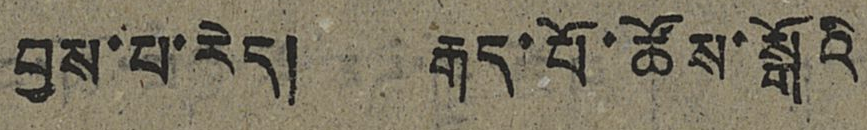བྱས་པ་རེད། རྒད་པོ་ཚོས་སྒོའི
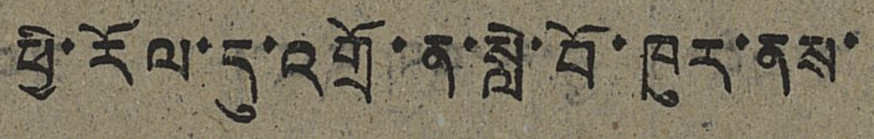ཕྱི་རོལ་དུ་འགྲོ་ན་སླེ་བོ་ཁུར་ནས་
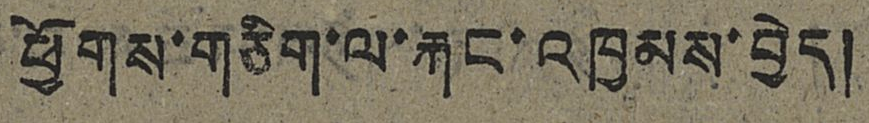ཕྱོགས་གཅིག་ལ་རྐང་འཁྱམས་བྱེད།
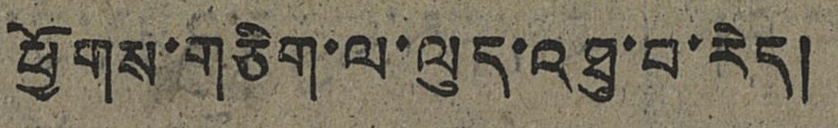ཕྱོགས་གཅིག་ལ་ལུད་འཐུ་བ་རེད།
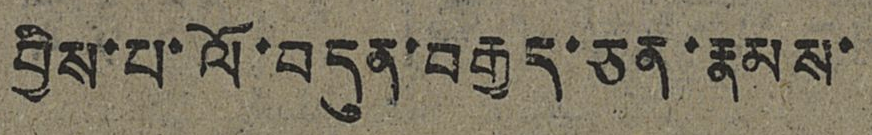བྱིས་པ་ལོ་བདུན་བརྒྱད་ཅན་རྣམས་
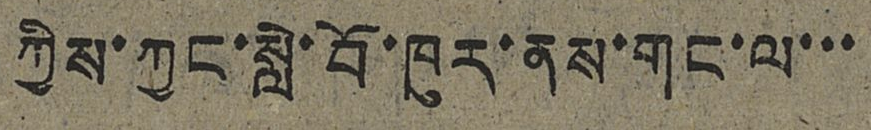ཀྱིས་ཀྱང་སླེ་བོ་ཁུར་ནས་གང་ལ་་་
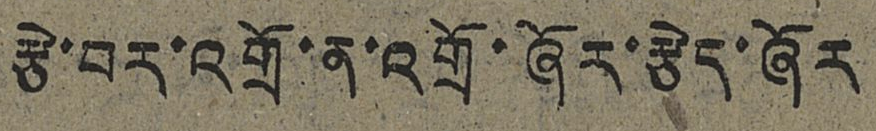རྩེ་བར་འགྲོ་ན་འགྲོ་ཞོར་རྩེད་ཞོར
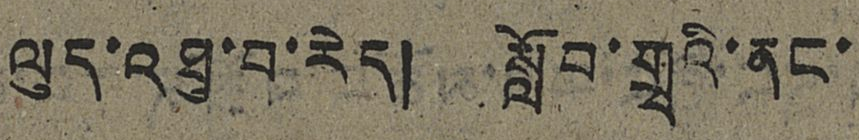ལུད་འཐུ་བ་རེད། སློབ་གྲྭའི་ནང་
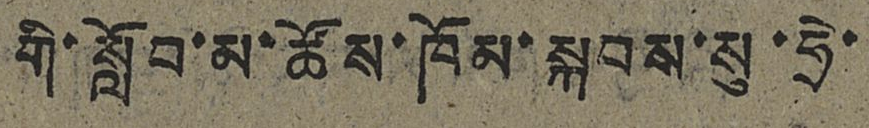གི་སློབ་མ་ཚོས་ཁོམ་སྐབས་སུ་ཧྲེ་
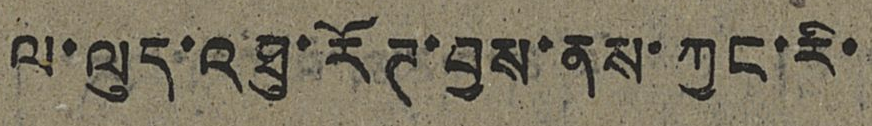ལ་ལུད་འཐུ་རོཊ་བྱས་ནས་ཀྱང་རི་
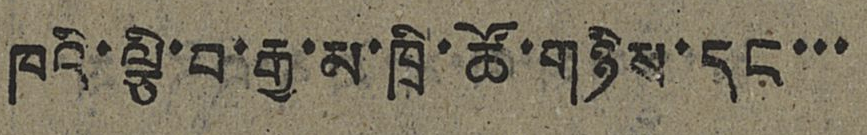ཁའི་ལྕི་བ་རྒྱ་མ་ཁྲི་ཚོ་གཉིས་དང་་་
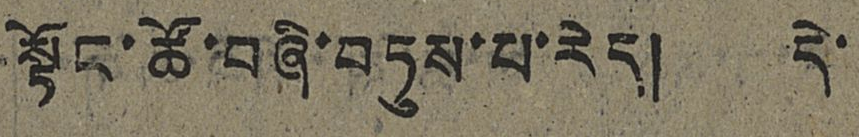སྟོང་ཚོ་བཞི་བཏུས་པ་རེད། དེ་
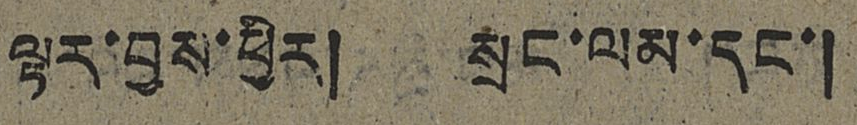ལྟར་བྱས་ཕྱིར། སྲང་ལམ་དང་།
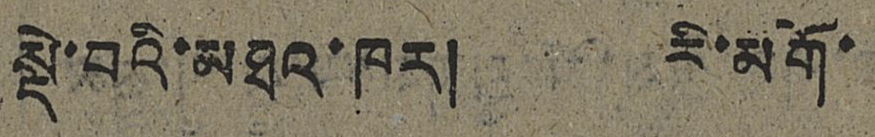སྡེ་བའི་མཐའ་ཁར། རི་མགོ་
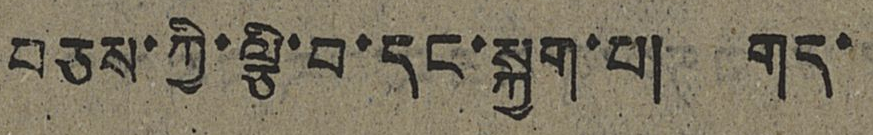བཅས་ཀྱི་ལྕི་བ་དང་སྐྱག་པ། གད་
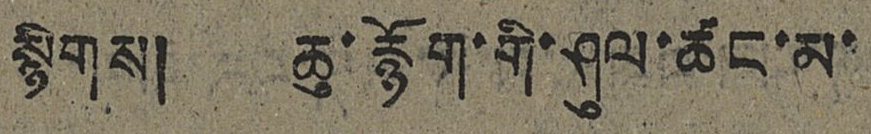སྙིགས། ཆུ་རྙོག་གི་ཤུལ་ཚང་མ་
